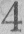4
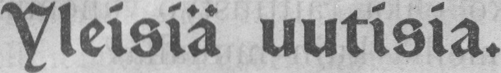Yleisiä uutisia.
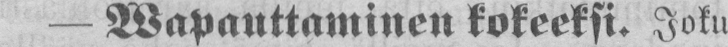— Wapauttaminen kokeeksi. Joku
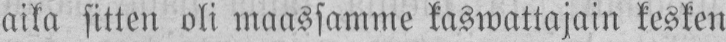aika sitten oli maassamme kaswattajain kesken
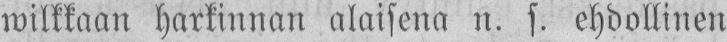wilkkaan harkinnan alaisena n. s. ehdollinen
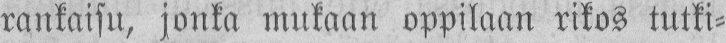rankaisu, jonka mukaan oppilaan rikos tutki-
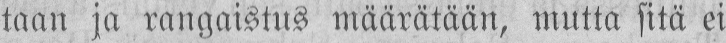taan ja rangaistus määrätään, mutta sitä ei
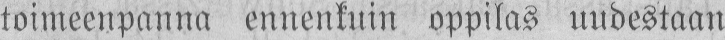toimeenpanna ennenkuin oppilas uudestaan
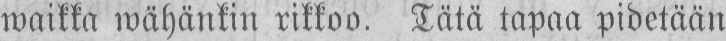waikka wähänkin rikkoo. Tätä tapaa pidetään
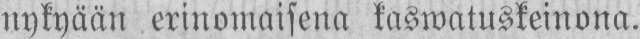nykyään erinomaisena kaswatuskeinona.
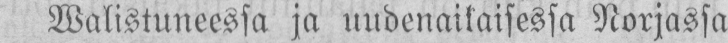Walistuneessa ja uudenaikaisessa Norjassa
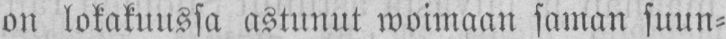on lokakuussa astunut woimaan saman suun-
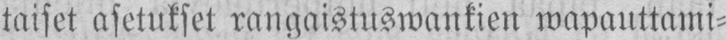taiset asetukset rangaistuswankien wapauttami-
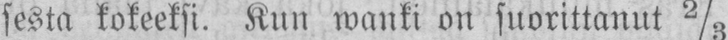sesta kokeeksi. Kun wanki on suorittanut ⅔
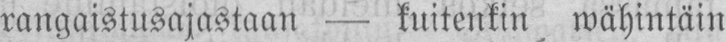rangaistusajastaan — kuitenkin wähintäin
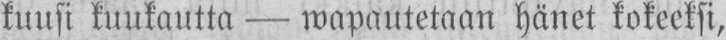kuusi kuukautta — wapautetaan hänet kokeeksi,
